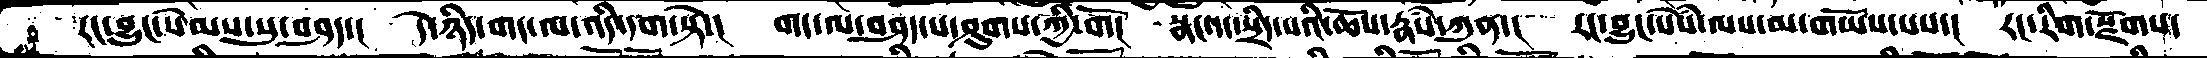རང་བྱུང་སེམས་སུ་བཤད་།  དེ་ཉིད་གང་ལ་འདི་དག་སྟེ་།  གང་ལ་བཤད་པ་ཤུགས་ཀྱི་གོ། སྣང་དང་སྲིད་པའི་ཆོས་རྣཾས་ཀུན་། རང་བྱུང་སེཾས་ལས་མ་གཡོས་པས་།  རང་རིག་སྫོགས
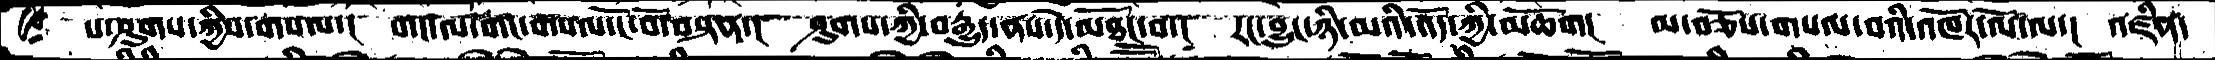པ་ཤུགས་ཀྱིས་གསལ་།  གང་ལ་གང་གསལ་ངོ་བོ་བསྟན་།  ཤུགས་ཀྱི་བརྒྱུད་ནས་དེ་མཐོང་བ་།  རང་བྱུང་ཉི་མའི་འོད་ཀྱི་མཆོག།  མ་བཅོས་གསལ་བའི་འཁོར་ལོ་ལ་།  འཛིན་
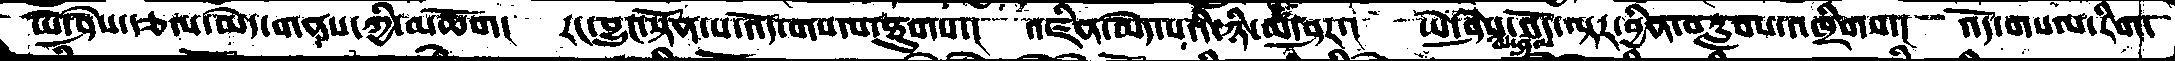ཡེ་ཤེས་རྩལ་མེད་གནས་ཀྱི་མཆོག། རང་བྱུང་སྟོན་པ་འོད་གསལ་ཐུགས་།  འཛིན་མེད་པའི་ཉི་མ་ཤར་།  ཡེ་ཤེས་འོད་ལྟར་བྱིན་བརླབས་འཁྲིགས་།  འོད་གསལ་རིག་
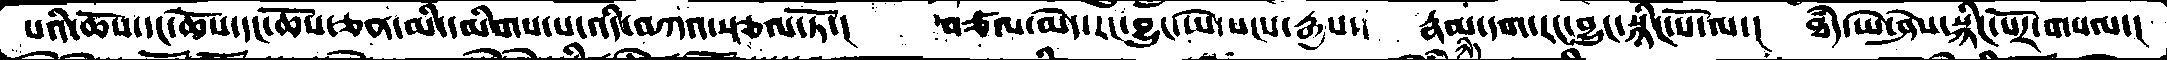པའི་ཆོས་དང་ཆོས་དང་ཆོས་ཅན་མི་དམིགས་པ་འདི་བཀའ་སྩལ་ཏོ་།  བཙལ་མེད་རང་བྱུང་ཡེ་སངས་རྒྱས་།  རྣམ་དག་རང་བྱུང་སྙིང་པོ་ལ་།  ཐཾད་ཡེ་ཤེས་སྙིང་པོར་གསལ་།
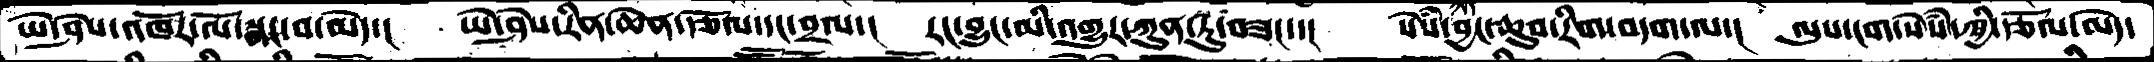ཡེ་ཤེས་འཁོར་ལོ་སྣང་བ་མེད་།  ཡེ་ཤེས་རིན་ཆེན་རྩོལ་དང་བྲལ་།  རང་བྱུང་མི་འགྱུར་ཀུན་ཏུ་བཟང་་།  སེཾས་ཉིད་བྱང་ཆུབ་རིག་བདག་ལ་།  ལུས་ངག་སེཾས་ཀྱི་རྩོལ་མེད་
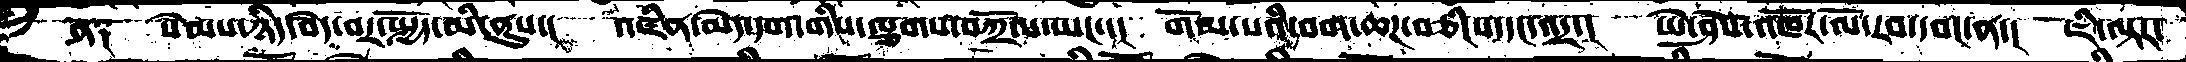ན༑  སེམས་ཉིད་བདེ་བར་སྤྱོད་མི་ནུས་།  འཛིན་མེད་དག་གིས་ལྕགས་བཀྲོལ་ཡང་་།  གོམ་པའི་བག་ཆཌ་བཅིངས་དང་འདྲ་།  ཡེ་ཤེས་འཁོར་ལོ་རབ་དབང་ན་།  ཇི་ལྟར་
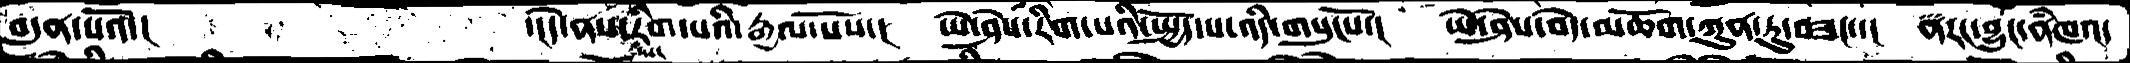བདུན་པའོ་།       ་།དེ་ནས་ཡང་རིག་པའི་རྒྱལ་པོས་།  ཡེ་ཤེས་རིག་པའི་སྤྱོད་པ་འདི་གསུངསོ་།  ཡེ་ཤེས་བདེ་མཆོག་ཀུན་ཏུ་བཟང་་།  ནརང་བྱུང་ནཾཁའ་
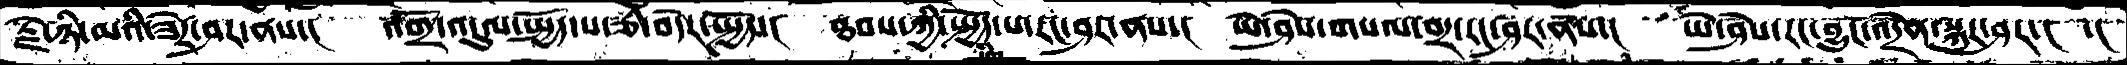རྗེ་ཉི་མའི་ཟེར་ཤར་ནས་།  འགྲོ་འདུལ་སྤྱོད་པ་ཅི་བདེར་སྤྱོད་།  ཐབས་ཀྱི་སྤྱོད་པ་རང་ཤར་ནས་།  ཡེ་ཤེས་གསལ་བར་རང་ཤར་ནས་།  ཡེ་ཤེས་རང་བྱུང་འདྲེན་སྐུར་ཤར་།  ་།
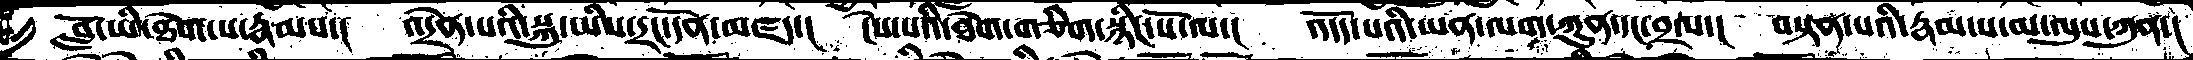བློ་ཡི་ཐེག་པ་རྣམས་།  འདྲེན་པའི་སྐུ་ཡིས་དྲང་དོན་མཛད་།  ངེས་པའི་ཐེག་གཅིག་སྙིང་པོ་ལ་།  འདོད་པའི་ཡན་ལག་ཀུན་དང་བྲལ་།  བསྟན་པའི་རྣམ་པ་མ་ལུས་ཀུན་།
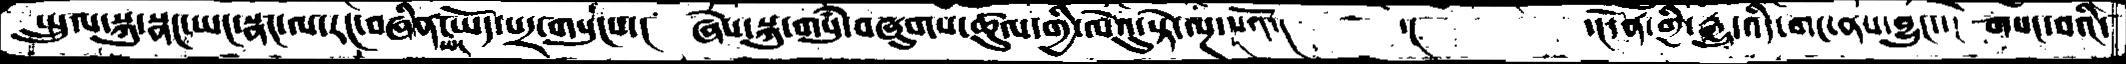སྤྲུལ་སྐུ་སྣང་ཡང་སྣང་ལ་རང་བཞིན་ཡང་ཡོད་པར་གསུངས་།  ཞེས་སྐུ་གསུཾ་བཞུགས་ཚུལ་གྱི་ལེའུ་སྟེ་ལྔ་པའོ་།   ་།    ་།དོན་གྱི་རྒྱུ་འདི་གང་ནས་བྱུང་་།  གསང་བའི་
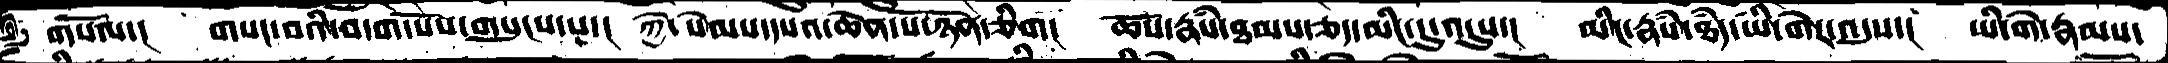གསོལ་།  གསང་བའི་བདག་པོས་གསུངས་པ་།  ཀྱེ་སེམས་དཔའ་ཆེན་པོ་ཉོན་ཅིག།  ཆོས་རྣཾས་ཐམས་ཅད་མིང་དུ་འདུས་།  མིང་རྣཾས་ཐཾད་ཡི་གེར་འདུས་།  ཡི་གེ་རྣམས་
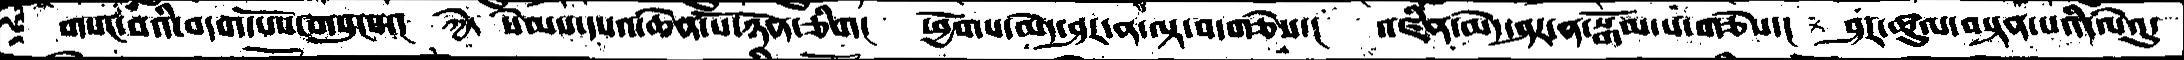གསང་བའི་བདག་པོས་གསུངས་།  ཀྱེ་ སེམས་དཔའ་ཆེན་པོ་ཉོན་ཅིག།  ཕྱོགས་མེད་ཤར་ན་ལྟ་བ་གཅེས་།  འཛིན་མེད་ཤར་ན་སྒོམ་པ་གཅེས་།  ཤར་ཚུལ་བསྟན་པའི་ལེའུ་
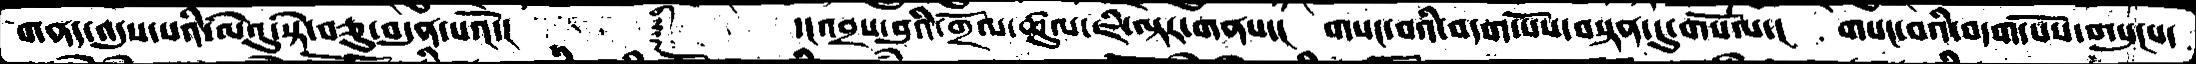གནད་འདུས་པའི་ལེའུ་སྟེ་བཅུ་བདུན་པའོ་།     ༈    ་།འབྲས་བུའི་གྲོལ་ཚུལ་ཇི་ལྟར་གནས་།  གསང་བའི་བདག་པོས་བསྟན་དུ་གསོལ་།  གསང་བའི་བདག་པོས་གསུངས་
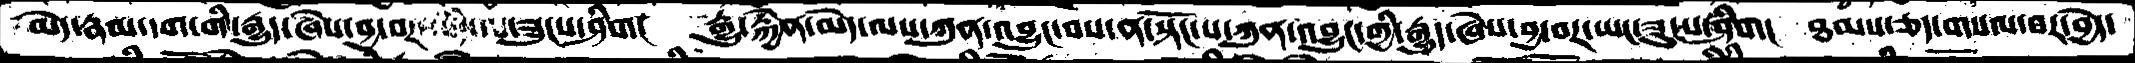མེད་རྣམ་དག་གི་རྒྱུད་ཞེས་བྱ་བར་ཟུངས་ཤིག།   རྒྱུ་རྐྱེན་མེད་ལས་ཀུན་འབྱུང་བས་ན་སྟོང་པ་ཀུན་འབྱུང་གྱི་རྒྱུད་ཞེས་བྱ་བར་ཡང་ཟུངས་ཤིག།  ཐམས་ཅད་གསལ་བར་བྱེད་
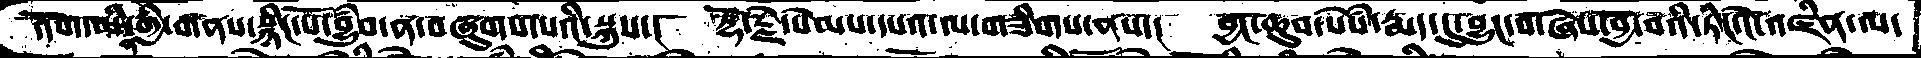འོག་མིན་གྱི་གནས་སྙིང་པོ་བྱུཾབ་ན་བཞུགས་པའི་སྐུས་།  རྡོ་རྗེ་སེམས་དཔའ་ལ་གཟིགས་ནས་།  བྱང་ཆུབ་སེཾས་རྨད་དུ་བྱུང་བ་ཞེས་བྱ་བའི་ཏིང་ངེ་འཛིན་ལ་
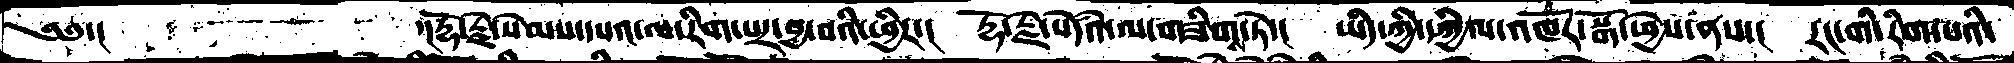༄༅་།       ་།རྡོ་རྗེ་སེམས་དཔའ་ལ་རིག་པར་བྱ་བའི་ཕྱིར་།  རྡོ་རྗེ་སེདཾའ་ལ་གཟིགས་ཏེ་།  ཡིད་ཀྱི་དཀྱིལ་འཁོར་སྒོ་ཕྱེས་ནས་།  རང་གི་རིག་པའི་
